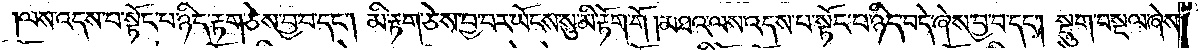ལས་འདས་པ་སྟོང་པ་ཉིད་རྟག་ཅེས་བྱ་བ་དང༌། མི་རྟག་ཅེས་བྱ་བར་ཡོངས་སུ་མི་རྟོག་གོ །མཐའ་ལས་འདས་པ་སྟོང་པ་ཉིད་བདེ་ཞེས་བྱ་བ་དང༌། སྡུག་བསྔལ་ཞེས་
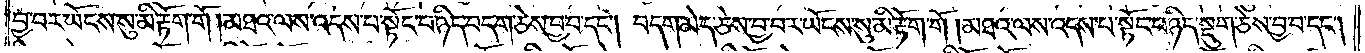བྱ་བར་ཡོངས་སུ་མི་རྟོག་གོ །མཐའ་ལས་འདས་པ་སྟོང་པ་ཉིད་བདག་ཅེས་བྱ་བ་དང༌། བདག་མེད་ཅེས་བྱ་བར་ཡོངས་སུ་མི་རྟོག་གོ །མཐའ་ལས་འདས་པ་སྟོང་པ་ཉིད་སྡུག་ཅེས་བྱ་བ་དང༌།
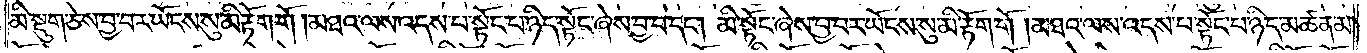མི་སྡུག་ཅེས་བྱ་བར་ཡོངས་སུ་མི་རྟོག་གོ །མཐའ་ལས་འདས་པ་སྟོང་པ་ཉིད་སྟོང་ཞེས་བྱ་བ་དང༌། མི་སྟོང་ཞེས་བྱ་བར་ཡོངས་སུ་མི་རྟོག་གོ །མཐའ་ལས་འདས་པ་སྟོང་པ་ཉིད་མཚན་མ་
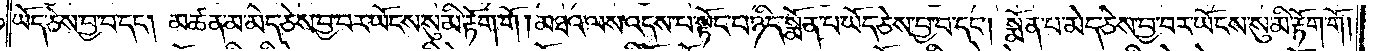ཡོད་ཅེས་བྱ་བ་དང༌།མཚན་མ་མེད་ཅེས་བྱ་བར་ཡོངས་སུ་མི་རྟོག་གོ །མཐའ་ལས་འདས་པ་སྟོང་པ་ཉིད་སྨོན་པ་ཡོད་ཅེས་བྱ་བ་དང༌། སྨོན་པ་མེད་ཅེས་བྱ་བར་ཡོངས་སུ་མི་རྟོག་གོ །
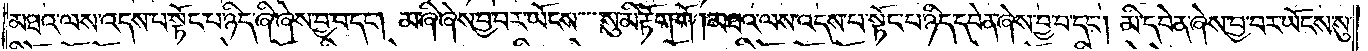མཐའ་ལས་འདས་པ་སྟོང་པ་ཉིད་ཞི་ཞེས་བྱ་བ་དང༌། མ་ཞི་ཞེས་བྱ་བར་ཡོངས་སུ་མི་རྟོག་གོ །མཐའ་ལས་འདས་པ་སྟོང་པ་ཉིད་དབེན་ཞེས་བྱ་བ་དང༌། མི་དབེན་ཞེས་བྱ་བར་ཡོངས་སུ་
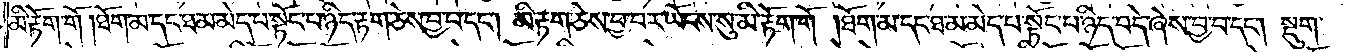མི་རྟོག་གོ །ཐོག་མ་དང་ཐ་མ་མེད་པ་སྟོང་པ་ཉིད་རྟག་ཅེས་བྱ་བ་དང༌། མི་རྟག་ཅེས་བྱ་བར་ཡོངས་སུ་མི་རྟོག་གོ །ཐོག་མ་དང་ཐ་མ་མེད་པ་སྟོང་པ་ཉིད་བདེ་ཞེས་བྱ་བ་དང༌། སྡུག་
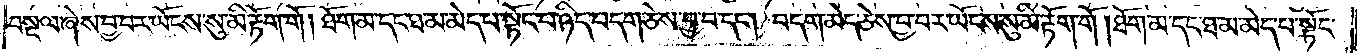བསྔལ་ཞེས་བྱ་བར་ཡོངས་སུ་མི་རྟོག་གོ །ཐོག་མ་དང་ཐ་མ་མེད་པ་སྟོང་པ་ཉིད་བདག་ཅེས་བྱ་བ་དང༌། བདག་མེད་ཅེས་བྱ་བར་ཡོངས་སུ་མི་རྟོག་གོ །ཐོག་མ་དང་ཐ་མ་མེད་པ་སྟོང་
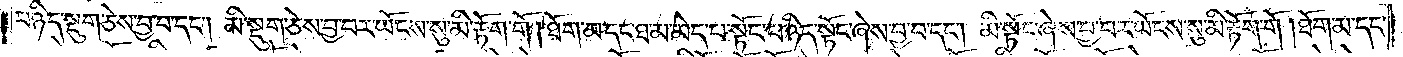པ་ཉིད་སྡུག་ཅེས་བྱ་བ་དང༌། མི་སྡུག་ཅེས་བྱ་བར་ཡོངས་སུ་མི་རྟོག་གོ །ཐོག་མ་དང་ཐ་མ་མེད་པ་སྟོང་པ་ཉིད་སྟོང་ཞེས་བྱ་བ་དང༌། མི་སྟོང་ཞེས་བྱ་བར་ཡོངས་སུ་མི་རྟོག་གོ །ཐོག་མ་དང་
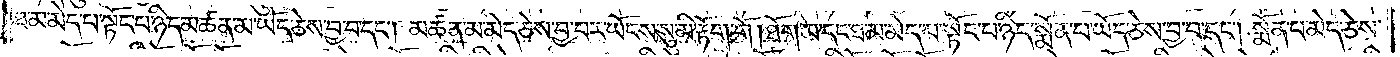ཐ་མ་མེད་པ་སྟོང་པ་ཉིད་མཚན་མ་ཡོད་ཅེས་བྱ་བ་དང༌། མཚན་མ་མེད་ཅེས་བྱ་བར་ཡོངས་སུ་མི་རྟོག་གོ །ཐོག་མ་དང་ཐ་མ་མེད་པ་སྟོང་པ་ཉིད་སྨོན་པ་ཡོད་ཅེས་བྱ་བ་དང༌། སྨོན་པ་མེད་ཅེས་
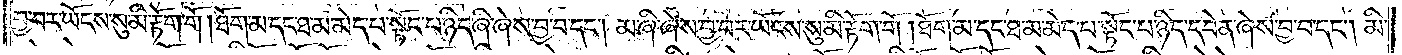བྱ་བར་ཡོངས་སུ་མི་རྟོག་གོ །ཐོག་མ་དང་ཐ་མ་མེད་པ་སྟོང་པ་ཉིད་ཞི་ཞེས་བྱ་བ་དང༌། མ་ཞི་ཞེས་བྱ་བར་ཡོངས་སུ་མི་རྟོག་གོ །ཐོག་མ་དང་ཐ་མ་མེད་པ་སྟོང་པ་ཉིད་དབེན་ཞེས་བྱ་བ་དང༌། མི་
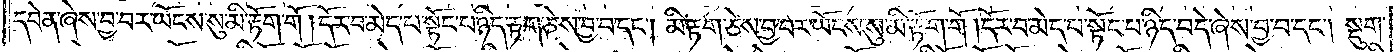དབེན་ཞེས་བྱ་བར་ཡོངས་སུ་མི་རྟོག་གོ །དོར་བ་མེད་པ་སྟོང་པ་ཉིད་རྟག་ཅེས་བྱ་བ་དང༌། མི་རྟག་ཅེས་བྱ་བར་ཡོངས་སུ་མི་རྟོག་གོ །དོར་བ་མེད་པ་སྟོང་པ་ཉིད་བདེ་ཞེས་བྱ་བ་དང༌། སྡུག་
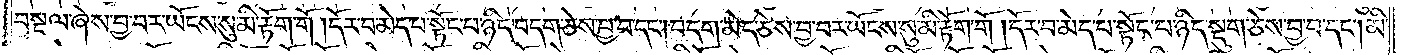བསྔལ་ཞེས་བྱ་བར་ཡོངས་སུ་མི་རྟོག་གོ་དོར་བ་མེད་པ་སྟོང་པ་ཉིད་བདག་ཅེས་བྱ་བ་དང༌། བདག་མེད་ཅེས་བྱ་བར་ཡོངས་སུ་མི་རྟོག་གོ །དོར་བ་མེད་པ་སྟོང་པ་ཉིད་སྡུག་ཅེས་བྱ་བ་དང༌། མི་
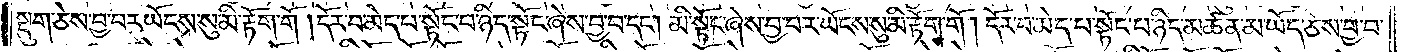སྡུག་ཅེས་བྱ་བར་ཡོངས་སུ་མི་རྟོག་གོ། དོར་བ་མེད་པ་སྟོང་པ་ཉིད་སྟོང་ཞེས་བྱ་བ་དང༌། མི་སྟོང་ཞེས་བྱ་བར་ཡོངས་སུ་མི་རྟོག་གོ །དོར་བ་མེད་པ་སྟོང་པ་ཉིད་མཚན་མ་ཡོད་ཅེས་བྱ་བ་
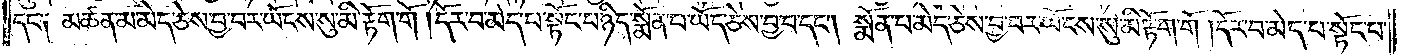དང༌། མཚན་མ་མེད་ཅས་བྱ་བས་ཡོངས་སུ་མི་རྟོག་གོ །དོར་བ་མེད་པ་སྟོང་པ་ཉིད་སྨོན་པ་ཡོད་ཅེས་བྱ་བ་དང༌། སྨོན་པ་མེད་ཅེས་བྱ་བར་ཡོངས་སུ་མི་རྟོག་གོ །དོར་བ་མེད་པ་སྟོང་པ་
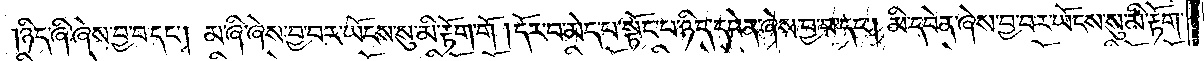ཉིད་ཞི་ཞེས་བྱ་བ་དང༌། མ་ཞི་ཞེས་བྱ་བར་ཡོངས་སུ་མི་རྟོག་གོ །དོར་བ་མེད་པ་སྟོང་པ་ཉིད་དབེན་ཞེས་བྱ་བ་དང༌། མི་དབེན་ཞེས་བྱ་བར་ཡོངས་སུ་མི་རྟོག་
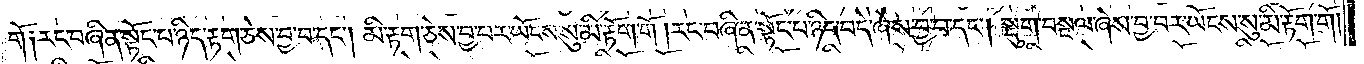གོ །རང་བཞིན་སྟོང་པ་ཉིད་རྟག་ཅེས་བྱ་བ་དང༌། མི་རྟག་ཅེས་བྱ་བར་ཡོངས་སུ་མི་རྟོག་གོ །རང་བཞིན་སྟོང་པ་ཉིད་བདེ་ཞེས་བྱ་བ་དང༌། སྡུག་བསྔལ་ཞེས་བྱ་བར་ཡོངས་སུ་མི་རྟོག་གོ །
